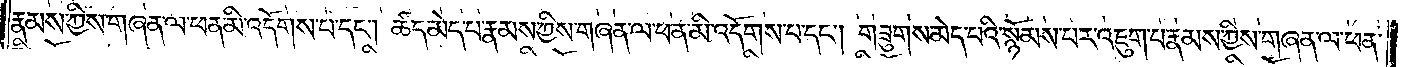རྣམས་ཀྱིས་གཞན་ལ་ཕན་མི་འདོགས་པ་དང༌། ཚད་མེད་པ་རྣམས་ཀྱིས་གཞན་ལ་ཕན་མི་འདོགས་པ་དང༌། གཟུགས་མེད་པའི་སྙོམས་པར་འཇུག་པ་རྣམས་ཀྱིས་གཞན་ལ་ཕན་
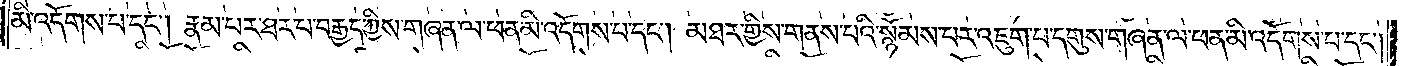མི་འདོགས་པ་དང༌། རྣམ་པར་ཐར་པ་བརྒྱད་ཀྱིས་གཞན་ལ་ཕན་མི་འདོགས་པ་དང༌། མཐར་གྱིས་གནས་པའི་སྙོམས་པར་འཇུག་པ་དགུས་གཞན་ལ་ཕན་མི་འདོགས་པ་དང༌།
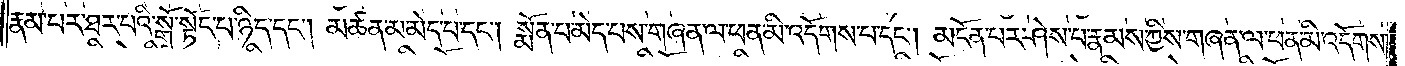རྣམ་པར་ཐར་པའི་སྒོ་སྟོང་པ་ཉིད་དང༌། མཚན་མ་མེད་པ་དང༌། སྨོན་པ་མེད་པས་གཞན་ལ་ཕན་མི་འདོགས་པ་དང༌། མངོན་པར་ཤེས་པ་རྣམས་ཀྱིས་གཞན་ལ་ཕན་མི་འདོགས་
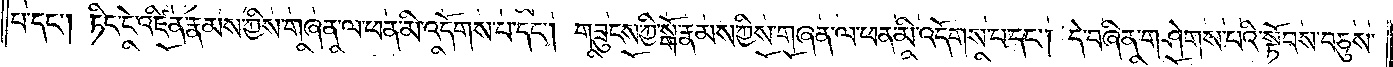པ་དང༌། ཏིང་ངེ་འཛིན་རྣམས་ཀྱིས་གཞན་ལ་ཕན་མི་འདོགས་པ་དང༌། གཟུངས་ཀྱི་སྒོ་རྣམས་ཀྱིས་གཞན་ལ་ཕན་མི་འདོགས་པ་དང༌། དེ་བཞིན་གཤེགས་པའི་སྟོབས་བཅུས་
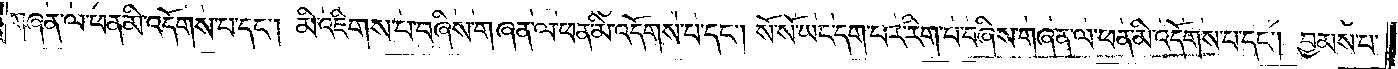གཞན་ལ་ཕན་མི་འདོགས་པ་དང༌། མི་འཇིགས་པ་བཞིས་གཞན་ལ་ཕན་མི་འདོགས་པ་དང༌། སོ་སོ་ཡང་དག་པར་རིག་པ་བཞིས་གཞན་ལ་ཕན་མི་འདོགས་པ་དང༌། བྱམས་པ་
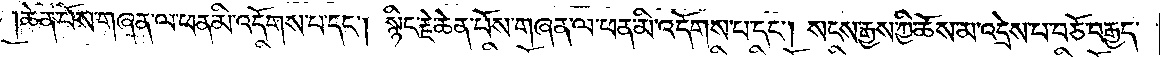ཆེན་པོས་གཞན་ལ་ཕན་མི་འདོགས་པ་དང༌། སྙིང་རྗེ་ཆེན་པོས་གཞན་ལ་ཕན་མི་འདོགས་པ་དང༌། སངས་རྒྱས་ཀྱི་ཆོས་མ་འདྲེས་པ་བཅོ་བརྒྱད་
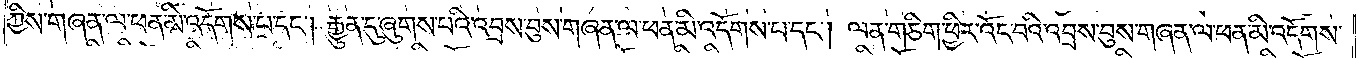ཀྱིས་གཞན་ལ་ཕན་མི་འདོགས་པ་དང༌། རྒྱུན་དུ་ཞུགས་པའི་འབྲས་བུས་གཞན་ལ་ཕན་མི་འདོགས་པ་དང༌། ལན་གཅིག་ཕྱིར་འོང་བའི་འབྲས་བུས་གཞན་ལ་ཕན་མི་འདོགས་
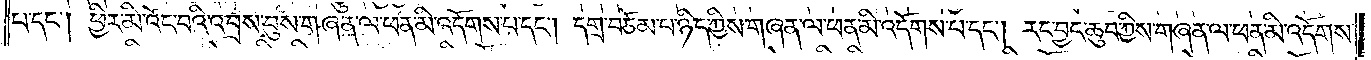པ་དང༌། ཕྱིར་མི་འོང་བའི་འབྲས་བུས་གཞན་ལ་ཕན་མི་འདོགས་པ་དང༌། དགྲ་བཅོམ་པ་ཉིད་ཀྱིས་གཞན་ལ་ཕན་མི་འདོགས་པ་དང༌། རང་བྱང་ཆུབ་ཀྱིས་གཞན་ལ་ཕན་མི་འདོགས་
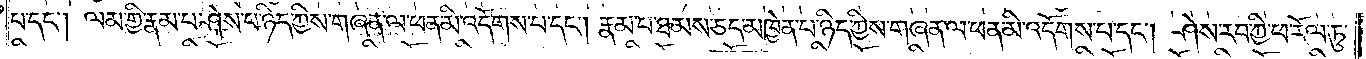པ་དང༌། ལམ་གྱི་རྣམ་པ་ཤེས་པ་ཉིད་ཀྱིས་གཞན་ལ་ཕན་མི་འདོགས་པ་དང༌། རྣམ་པ་ཐམས་ཅད་མཁྱེན་པ་ཉིད་ཀྱིས་གཞན་ལ་ཕན་མི་འདོགས་པ་དང༌། ཤེས་རབ་ཀྱི་ཕ་རོལ་ཏུ་
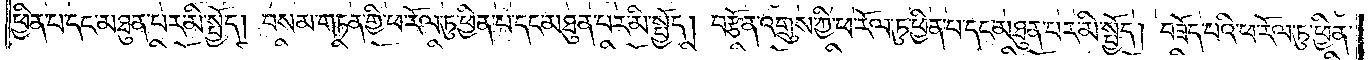ཕྱིན་པ་དང་མཐུན་པར་མི་སྤྱོད། བསམ་གཏན་གྱི་ཕ་རོལ་ཏུ་ཕྱིན་པ་དང་མཐུན་པར་མི་སྤྱོད། བརྩོན་འགྲུས་ཀྱི་ཕ་རོལ་ཏུ་ཕྱིན་པ་དང་མཐུན་པར་མི་སྤྱོད། བཟོད་པའི་ཕ་རོལ་ཏུ་ཕྱིན་
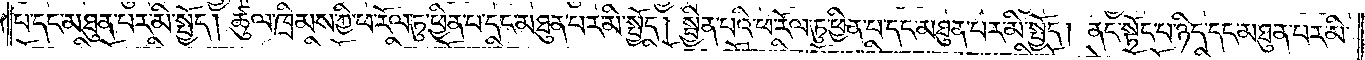པ་དང་མཐུན་པར་མི་སྤྱོད། ཚུལ་ཁྲིམས་ཀྱི་ཕ་རོལ་ཏུ་ཕྱིན་པ་དང་མཐུན་པར་མི་སྤྱོད། སྦྱིན་པའི་ཕ་རོལ་ཏུ་ཕྱིན་པ་དང་མཐུན་པར་མི་སྤྱོད། ནང་སྟོང་པ་ཉིད་དང་མཐུན་པར་མི་
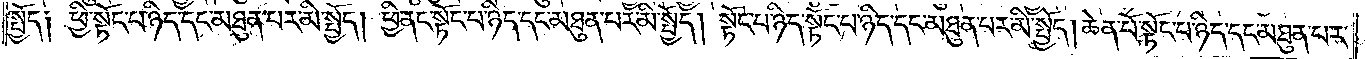སྤྱོད། ཕྱི་སྟོང་པ་ཉིད་དང་མཐུན་པར་མི་སྤྱོད། ཕྱི་ནང་སྟོང་པ་ཉིད་དང་མཐུན་པར་མི་སྤྱོད། སྟོང་པ་ཉིད་སྟོང་པ་ཉིད་དང་མཐུན་པར་མི་སྤྱོད། ཆེན་པོ་སྟོང་པ་ཉིད་དང་མཐུན་པར་
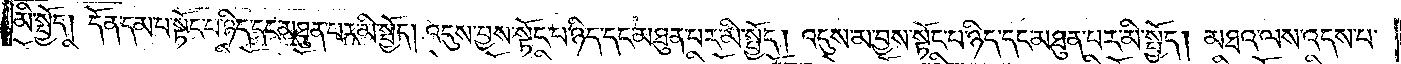མི་སྤྱོད། དོན་དམ་པ་སྟོང་པ་ཉིད་དང་མཐུན་པར་མི་སྤྱོད། འདུས་བྱས་སྟོང་པ་ཉིད་དང་མཐུན་པར་མི་སྤྱོད། འདུས་མ་བྱས་སྟོང་པ་ཉིད་དང་མཐུན་པར་མི་སྤྱོད། མཐའ་ལས་འདས་པ་
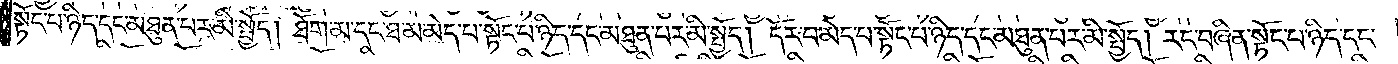སྟོང་པ་ཉིད་དང་མཐུན་པར་མི་སྤྱོད། ཐོག་མ་དང་ཐ་མ་མེད་པ་སྟོང་པ་ཉིད་དང་མཐུན་པར་མི་སྤྱོད། དོར་བ་མེད་པ་སྟོང་པ་ཉིད་དང་མཐུན་པར་མི་སྤྱོད། རང་བཞིན་སྟོང་པ་ཉིད་དང་
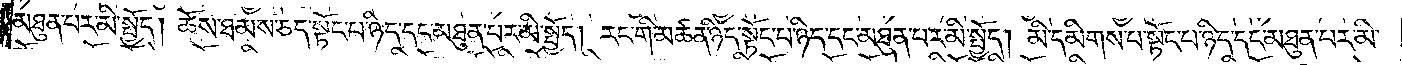མཐུན་པར་མི་སྤྱོད། ཆོས་ཐམས་ཅད་སྟོང་པ་ཉིད་དང་མཐུན་པར་མི་སྤྱོད། རང་གི་མཚན་ཉིད་སྟོང་པ་ཉིད་དང་མཐུན་པར་མི་སྤྱོད། མི་དམིགས་པ་སྟོང་པ་ཉིད་དང་མཐུན་པར་མི་
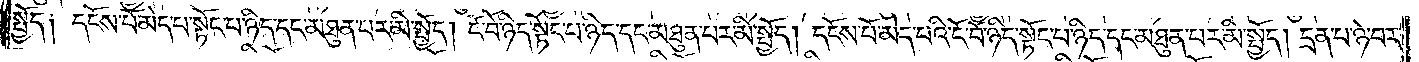སྤྱོད། དངོས་པོ་མེད་པ་སྟོང་པ་ཉིད་དང་མཐུན་པར་མི་སྤྱོད། ངོ་བོ་ཉིད་སྟོང་པ་ཉིད་དང་མཐུན་པར་མི་སྤྱོད། དངོས་པོ་མེད་པའི་ངོ་བོ་ཉིད་སྟོང་པ་ཉིད་དང་མཐུན་པར་མི་སྤྱོད། དྲན་པ་ཉེ་བར་
